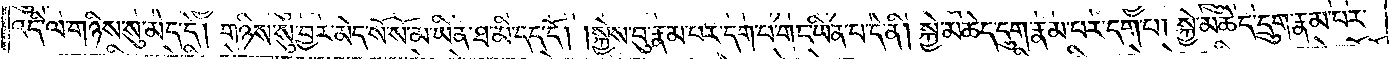འདི་ལ་གཉིས་སུ་མེད་དེ། གཉིས་སུ་བྱར་མེད་སོ་སོ་མ་ཡིན་ཐ་མི་དད་དོ། །སྐྱེས་བུ་རྣམ་པར་དག་པ་གང་ཡིན་པ་དེ་ནི། སྐྱེ་མཆེད་དྲུག་རྣམ་པར་དག་པ། སྐྱེ་མཆེད་དྲུག་རྣམ་པར་
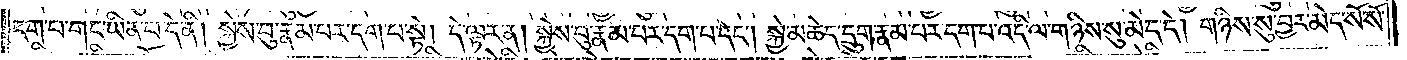དག་པ་གང་ཡིན་པ་དེ་ནི། སྐྱེས་བུ་རྣམ་པར་དག་པ་སྟེ། དེ་ལྟར་ན། སྐྱེས་བུ་རྣམ་པར་དག་པ་དང༌། སྐྱེ་མཆེད་དྲུག་རྣམ་པར་དག་པ་འདི་ལ་གཉིས་སུ་མེད་དེ། གཉིས་སུ་བྱར་མེད་སོ་སོ་
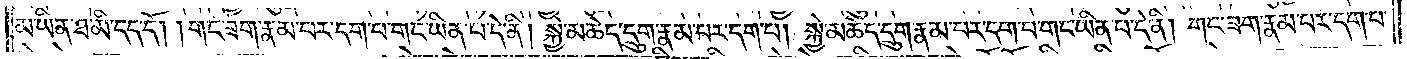མ་ཡིན་ཐ་མི་དད་དོ། །གང་ཟག་རྣམ་པར་དག་པ་གང་ཡིན་པ་དེ་ནི། སྐྱེ་མཆེད་དྲུག་རྣམ་པར་དག་པ། སྐྱེ་མཆེད་དྲུག་རྣམ་པར་དག་པ་གང་ཡིན་པ་དེ་ནི། གང་ཟག་རྣམ་པར་དག་པ་
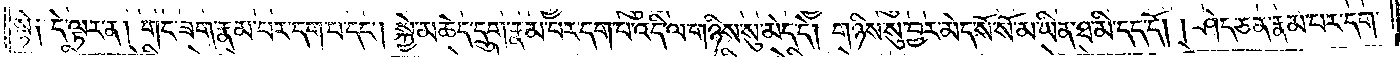སྟེ། དེ་ལྟར་ན། གང་ཟག་རྣམ་པར་དག་པ་དང༌། སྐྱེ་མཆེད་དྲུག་རྣམ་པར་དག་པ་འདི་ལ་གཉིས་སུ་མེད་དེ། གཉིས་སུ་བྱར་མེད་སོ་སོ་མ་ཡིན་ཐ་མི་དད་དོ། །ཤེད་ཅན་རྣམ་པར་དག་
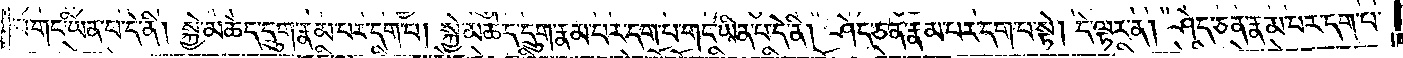པ་གང་ཡིན་པ་དེ་ནི། སྐྱེ་མཆེད་དྲུག་རྣམ་པར་དག་པ། སྐྱེ་མཆེད་དྲུག་རྣམ་པར་དག་པ་གང་ཡིན་པ་དེ་ནི། ཤེད་ཅན་རྣམ་པར་དག་པ་སྟེ། དེ་ལྟར་ན། ཤེད་ཅན་རྣམ་པར་དག་པ་
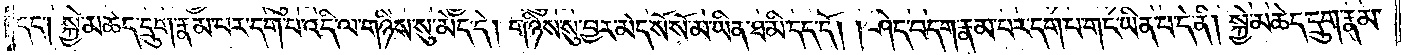དང༌། སྐྱེ་མཆེད་དྲུག་རྣམ་པར་དག་པ་འདི་ལ་གཉིས་སུ་མེད་དེ། གཉིས་སུ་བྱར་མེད་སོ་སོ་མ་ཡིན་ཐ་མི་དད་དོ། །ཤེད་བདག་རྣམ་པར་དག་པ་གང་ཡིན་པ་དེ་ནི། སྐྱེ་མཆེད་དྲུག་རྣམ་
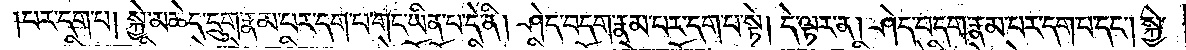པར་དག་པ། སྐྱེ་མཆེད་དྲུག་རྣམ་པར་དག་པ་གང་ཡིན་པ་དེ་ནི། ཤེད་བདག་རྣམ་པར་དག་པ་སྟེ། དེ་ལྟར་ན། ཤེད་བདག་རྣམ་པར་དག་པ་དང༌། སྐྱེ་
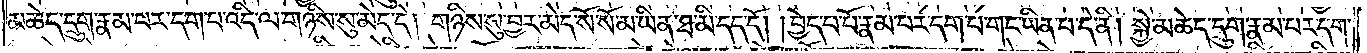མཆེད་དྲུག་རྣམ་པར་དག་པ་འདི་ལ་གཉིས་སུ་མེད་དེ། གཉིས་སུ་བྱར་མེད་སོ་སོ་མ་ཡིན་ཐ་མི་དད་དོ། །བྱེད་པ་པོ་རྣམ་པར་དག་པ་གང་ཡིན་པ་དེ་ནི། སྐྱེ་མཆེད་དྲུག་རྣམ་པར་དག་
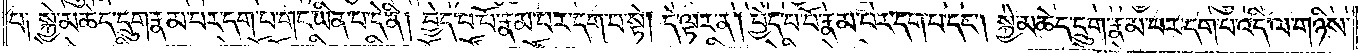པ། སྐྱེ་མཆེད་དྲུག་རྣམ་པར་དག་པ་གང་ཡིན་པ་དེ་ནི། བྱེད་པ་པོ་རྣམ་པར་དག་པ་སྟེ། དེ་ལྟར་ན། བྱེད་པ་པོ་རྣམ་པར་དག་པ་དང༌། སྐྱེ་མཆེད་དྲུག་རྣམ་པར་དག་པ་འདི་ལ་གཉིས་
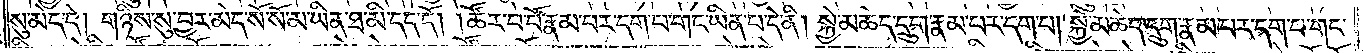སུ་མེད་དེ། གཉིས་སུ་བྱར་མེད་སོ་སོ་མ་ཡིན་ཐ་མི་དད་དོ། །ཚོར་བ་པོ་རྣམ་པར་དག་པ་གང་ཡིན་པ་དེ་ནི། སྐྱེ་མཆེད་དྲུག་རྣམ་པར་དག་པ། སྐྱེ་མཆེད་དྲུག་རྣམ་པར་དག་པ་གང་
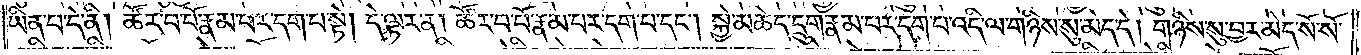ཡིན་པ་དེ་ནི། ཚོར་བ་པོ་རྣམ་པར་དག་པ་སྟེ། དེ་ལྟར་ན། ཚོར་བ་པོ་རྣམ་པར་དག་པ་དང༌། སྐྱེ་མཆེད་དྲུག་རྣམ་པར་དག་པ་འདི་ལ་གཉིས་སུ་མེད་དེ། གཉིས་སུ་བྱར་མེད་སོ་སོ་
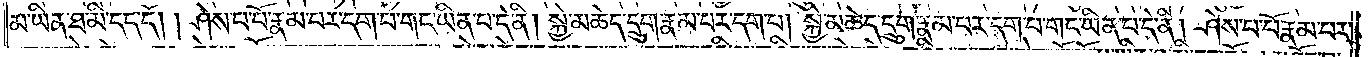མ་ཡིན་ཐ་མི་དད་དོ། །ཤེས་པ་པོ་རྣམ་པར་དག་པ་གང་ཡིན་པ་དེ་ནི། སྐྱེ་མཆེད་དྲུག་རྣམ་པར་དག་པ། སྐྱེ་མཆེད་དྲུག་རྣམ་པར་དག་པ་གང་ཡིན་པ་དེ་ནི། ཤེས་པ་པོ་རྣམ་པར་
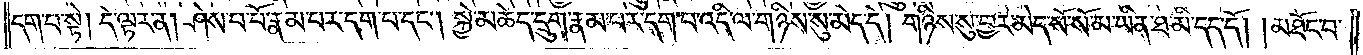དག་པ་སྟེ། དེ་ལྟར་ན། ཤེས་པ་པོ་རྣམ་པར་དག་པ་དང༌། སྐྱེ་མཆེད་དྲུག་རྣམ་པར་དག་པ་འདི་ལ་གཉིས་སུ་མེད་དེ། གཉིས་སུ་བྱར་མེད་སོ་སོ་མ་ཡིན་ཐ་མི་དད་དོ། །མཐོང་བ་
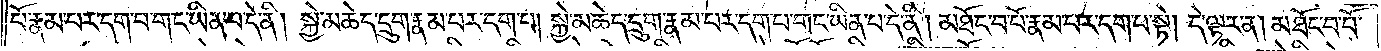པོ་རྣམ་པར་དག་པ་གང་ཡིན་པ་དེ་ནི། སྐྱེ་མཆེད་དྲུག་རྣམ་པར་དག་པ། སྐྱེ་མཆེད་དྲུག་རྣམ་པར་དག་པ་གང་ཡིན་པ་དེ་ནི། མཐོང་བ་པོ་རྣམ་པར་དག་པ་སྟེ། དེ་ལྟར་ན། མཐོང་བ་པོ་
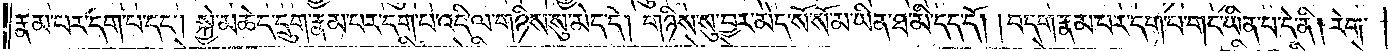རྣམ་པར་དག་པ་དང༌། སྐྱེ་མཆེད་དྲུག་རྣམ་པར་དག་པ་འདི་ལ་གཉིས་སུ་མེད་དེ། གཉིས་སུ་བྱར་མེད་སོ་སོ་མ་ཡིན་ཐ་མི་དད་དོ། །བདག་རྣམ་པར་དག་པ་གང་ཡིན་པ་དེ་ནི། རེག་
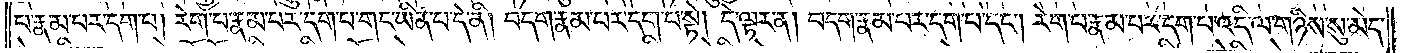པ་རྣམ་པར་དག་པ། རེག་པ་རྣམ་པར་དག་པ་གང་ཡིན་པ་དེ་ནི། བདག་རྣམ་པར་དག་པ་སྟེ། དེ་ལྟར་ན། བདག་རྣམ་པར་དག་པ་དང༌། རེག་པ་རྣམ་པར་དག་པ་འདི་ལ་གཉིས་སུ་མེད་
